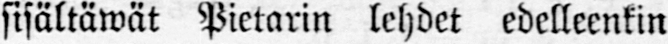sisältäwät Pietarin lehdet edelleenkin
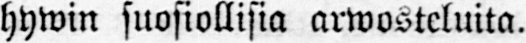hywin suosiollisia arwosteluita.
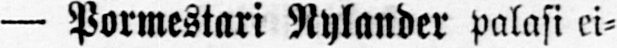— Pormestari Nylander palasi ei-
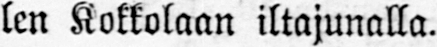len Kokkolaan iltajunalla.
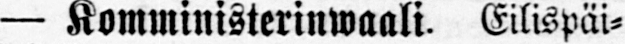— Komministerinwaali- Eilispä-
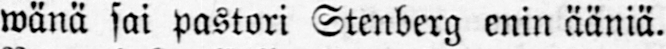wänä sai pastori Stenberg enin ääniä.
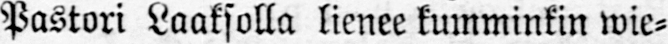Pastori Laaksolla lienee kumminkin wie-
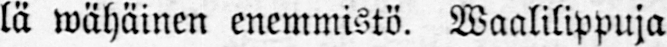lä wähäinen enemmistö. Waalilippuja
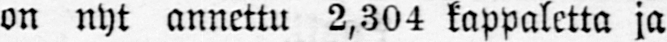on nyt annettu 2,304 kappaletta ja
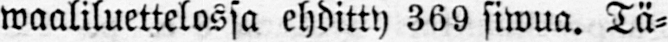waaliluettelossa ehditty 369 siwua. Tä-
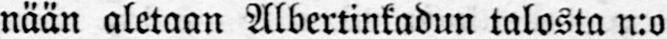nään aletaan Albertinkadun talosta n:o
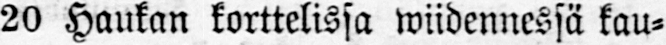20 Haukan korttelissa wiidennessä kau-
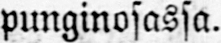punginosassa.
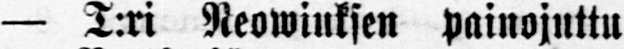— T:ri Neowiuksen painojuttu
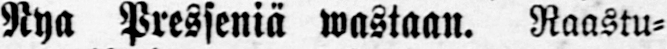Nya Presseniä wastaan. Raastu-
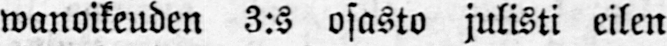wanoikeuden 3:s osasto julisti eilen
